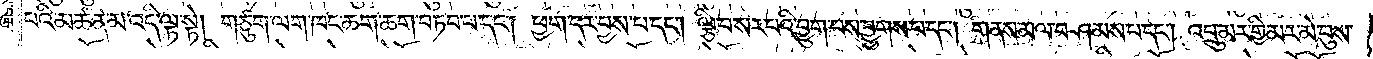པའི་མཚན་མ་འདི་ལྟ་སྟེ། གཙུག་ལག་ཁང་ཆག་ཆག་བཏབ་པ་དང༌། ཕྱག་དར་བྱས་པ་དང༌། ལྕི་བ་སར་པའི་བྱུག་པས་བྱུགས་པ་དང༌། གནས་མལ་བཤམས་པ་དང༌། འབྲུ་མར་གྱི་མར་མེ་བུས་
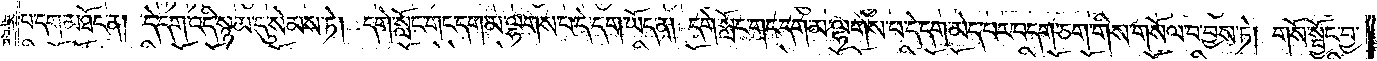པ་དག་མཐོང་ན། དེ་དག་འདི་སྙམ་དུ་སེམས་ཏེ། དགེ་སློང་གང་དག་མ་ལྷགས་པ་དེ་དག་ཡོད་ན། དགེ་སློང་གང་དག་མ་ལྷགས་པ་དེ་དག་མེད་པར་བདག་ཅག་གིས་གསོལ་བ་བྱས་ཏེ། གསོ་སྦྱོང་བྱ་
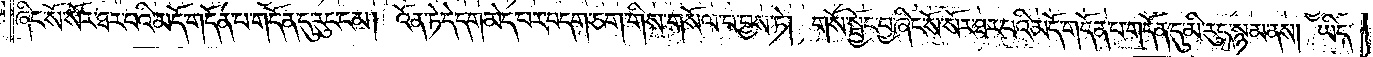ཞིང་སོ་སོར་ཐར་པའི་མདོ་གདོན་པ་གདོན་དུ་རུང་ངམ། འོན་ཏེ་དེ་དག་མེད་པར་བདག་ཅག་གིས་གསོལ་བ་བྱས་ཏེ། གསོ་སྦྱོང་བྱ་ཞིང་སོ་སོར་ཐར་པའི་མདོ་གདོན་པ་གདོན་དུ་མི་རུང་སྙམ་ནས། ཡིད་
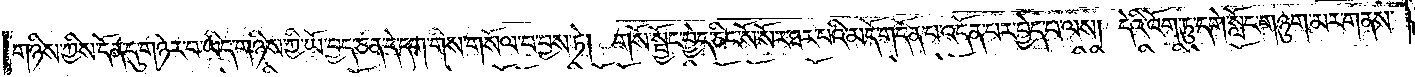གཉིས་ཀྱིས་དོན་དུ་གཉེར་བ་ཡིད་གཉིས་ཀྱི་ཡོ་བྱད་ཅན་དེ་དག་གིས་གསོལ་བ་བྱས་ཏེ། གསོ་སྦྱོང་བྱེད་ཅིང་སོ་སོར་ཐར་པའི་མདོ་གདོན་བ་འདོན་པར་བྱེད་པ་ལས། དེའི་འོག་ཏུ་དགེ་སློང་གཉུག་མར་གནས་
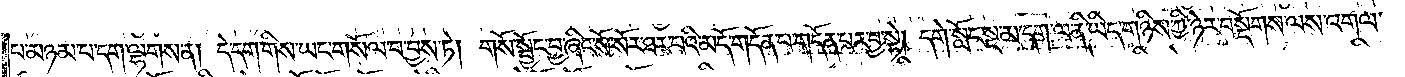པ་མཉམ་པ་དག་ལྷགས་ན། དེ་དག་གིས་ཡང་གསོལ་བ་བྱས་ཏེ། གསོ་སྦྱོང་བྱ་ཞིང་སོ་སོར་ཐར་པའི་མདོ་གདོན་པ་གདོན་པར་བྱ་སྟེ། དགེ་སློང་སྔ་མ་དག་ལ་ནི་ཡིད་གཉིས་ཀྱི་ཉེར་བསྡོགས་ལས་འགལ་
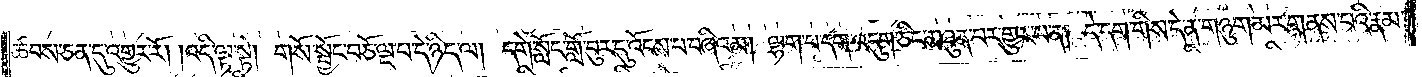ཚབས་ཅན་དུ་འགྱུར་རོ། །འདི་ལྟ་སྟེ། གསོ་སྦྱོང་བཅོ་ལྔ་པ་དེ་ཉིད་ལ། དགེ་སློང་གློ་བུར་དུ་འོངས་པ་བཞིའམ། ལྷག་པ་དག་འདུག་ཅིང་མཐུན་པར་གྱུར་པ་ན། དེ་དག་གིས་དེ་ན་གཉུག་མར་གནས་པའི་རྣམ་
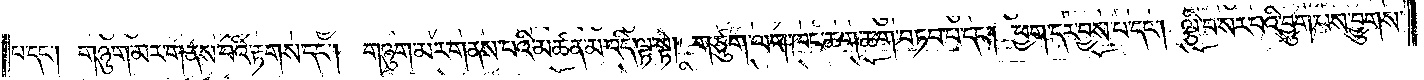པ་དང༌། གཉུག་མར་གནས་པའི་རྟགས་དང༌། གཉུག་མར་གནས་པའི་མཚན་མ་འདི་ལྟ་སྟེ། གཙུག་ལག་ཁང་ཆག་ཆག་བཏབ་པ་དང༌། ཕྱག་དར་བྱས་པ་དང༌། ལྕི་བ་སར་པའི་བྱུག་པས་བྱུགས་
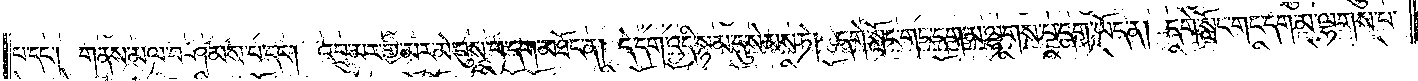པ་དང༌། གནས་མལ་བཤམས་པ་དང༌། འབྲུ་མར་གྱི་མར་མེ་བུས་པ་དག་མཐོང་ན། དེ་དག་འདི་སྙམ་དུ་སེམས་ཏེ། དགེ་སློང་གང་དག་མ་ལྷགས་པ་དག་ཡོད་ན། དགེ་སློང་གང་དག་མ་ལྷགས་པ་
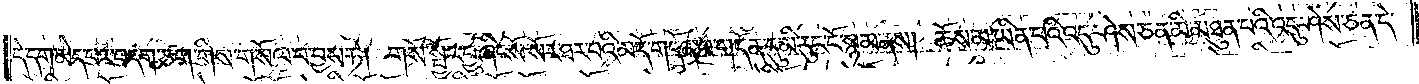དེ་དག་མེད་པར་བདག་ཅག་གིས་གསོལ་བ་བྱས་ཏེ། གསོ་སྦྱོང་བྱ་ཞིང་སོ་སོར་ཐར་པའི་མདོ་གདོན་པ་གདོན་དུ་མི་རུང་ངོ་སྙམ་ནས། ཆོས་མ་ཡིན་པའི་འདུ་ཤེས་ཅན་མི་མཐུན་པའི་འདུ་ཤེས་ཅན་དེ་
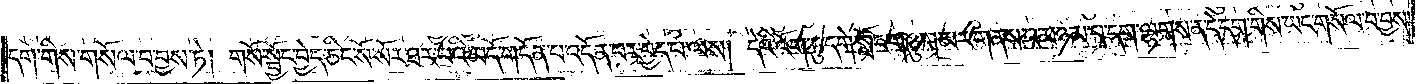དག་གིས་གསོལ་བ་བྱས་ཏེ། གསོ་སྦྱོང་བྱེད་ཅིང་སོ་སོར་ཐར་པའི་མདོ་གདོན་པ་འདོན་པར་བྱེད་པ་ལས། དེའི་འོག་ཏུ་དགེ་སློང་གཉུག་མར་གནས་པ་མཉམ་པ་དག་ལྷགས་ན་དེ་དག་གིས་ཡང་གསོལ་བ་བྱས་
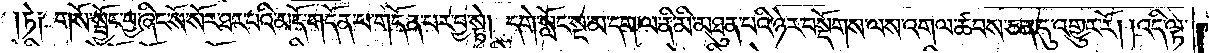ཏེ༑ གསོ་སྦྱོང་བྱ་ཞིང་སོ་སོར་ཐར་པའི་མདོ་གདོན་པ་གདོན་པར་བྱ་སྟེ། དགེ་སློང་སྔ་མ་དག་ལ་ནི་མི་མཐུན་པའི་ཉེར་བསྡོགས་ལས་འགལ་ཚབས་ཅན་དུ་འགྱུར་རོ། །འདི་ལྟ་
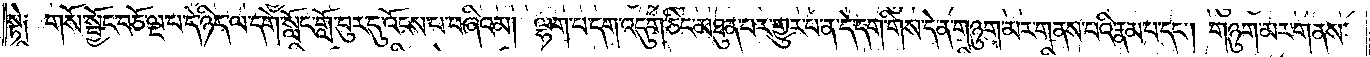སྟེ༑ གསོ་སྦྱོང་བཅོ་ལྔ་པ་དེ་ཉིད་ལ་དགེ་སློང་གློ་བུར་དུ་འོངས་པ་བཞིའམ། ལྷག་པ་དག་འདུག་ཅིང་མཐུན་པར་གྱུར་པ་ན་དེ་དག་གིས་དེ་ན་གཉུག་མར་གནས་པའི་རྣམ་པ་དང༌། གཉུག་མར་གནས་
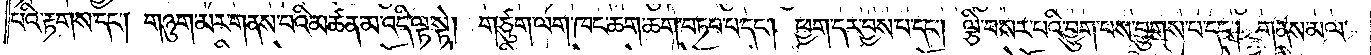པའི་རྟགས་དང༌། གཉུག་མར་གནས་པའི་མཚན་མ་འདི་ལྟ་སྟེ། གཙུག་ལག་ཁང་ཆག་ཆག་བཏབ་པ་དང༌། ཕྱག་དར་བྱས་པ་དང༌། ལྕི་བ་སར་པའི་བྱུག་པས་བྱུགས་པ་དང༌། གནས་མལ་
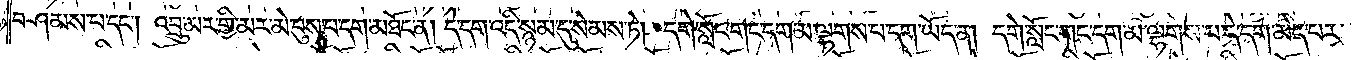བཤམས་པ་དང༌། འབྲུ་མར་གྱི་མར་མེ་བུས་པ་དག་མཐོང་ན། དེ་དག་འདི་སྙམ་དུ་སེམས་ཏེ། དགེ་སློང་གང་དག་མ་ལྷགས་པ་དག་ཡོད་ན། དགེ་སློང་གང་དག་མ་ལྷགས་པ་དེ་དག་མེད་པར་
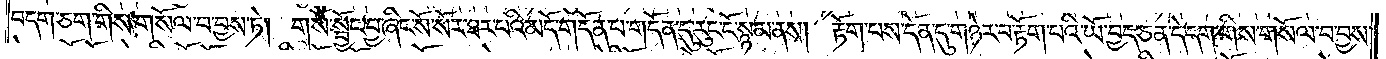བདག་ཅག་གིས་གསོལ་བ་བྱས་ཏེ། གསོ་སྦྱོང་བྱ་ཞིང་སོ་སོར་ཐར་པའི་མདོ་གདོན་པ་གདོན་དུ་རུང་ངོ་སྙམ་ནས། རྟོག་པས་དོན་དུ་གཉེར་བ་རྟོག་པའི་ཡོ་བྱད་ཅན་དེ་དག་གིས་གསོལ་བ་བྱས་
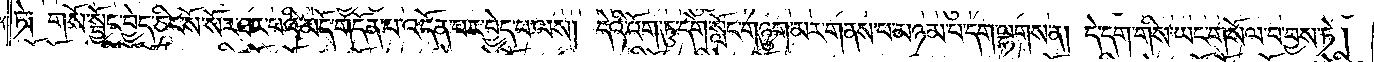ཏ༑  གསོ་སྦྱོང་བྱེད་ཅིང་སོ་སོར་ཐར་པའི་མདོ་གདོན་པ་འདོན་པར་བྱེད་པ་ལས། དེའི་འོག་ཏུ་དགེ་སློང་གཉུག་མར་གནས་པ་མཉམ་པ་དག་ལྷགས་ན། དེ་དག་གིས་ཡང་གསོལ་བ་བྱས་ཏེ།
